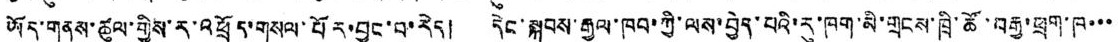ཡོད་གནས་ཚུལ་གྱིས་ར་འཕྲོད་གསལ་པོར་བྱུང་བ་རེད། དེང་སྐབས་རྒྱལ་ཁབ་ཀྱི་ལས་བྱེད་པའི་རུ་ཁག་མི་གྲངས་ཁྲི་ཚོ་བརྒྱ་ཕྲག་ཁ་་་
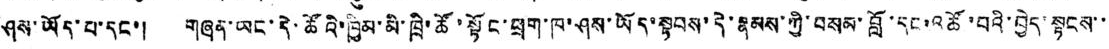ཤས་ཡོད་པ་དང་། གཞན་ཡང་དེ་ཚོའི་ཁྱིམ་མི་ཁྲི་ཚོ་སྟོང་ཕྲག་ཁ་ཤས་ཡོད་སྟབས་དེ་རྣམས་ཀྱི་བསམ་བློ་དང་འཚོ་བའི་བྱེད་སྟངས་་
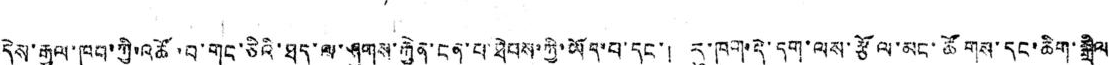དེས་རྒྱལ་ཁབ་ཀྱི་འཚོ་བ་གང་ཅིའི་ཐད་ལ་ཤུགས་རྐྱེན་ངན་པ་ཐེབས་ཀྱི་ཡོད་པ་དང་། རུ་ཁག་དེ་དག་ལས་རྩོལ་མང་ཚོགས་དང་ཆིག་སྒྲིལ
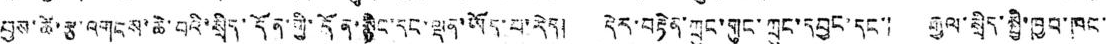བྱས་ཚེ་རྩ་འགངས་ཆེ་བའི་སྲིད་དོན་གྱི་དོན་སྙིང་དང་ལྡན་ཡོད་པ་རེད། དེར་བརྟེན་ཀྲུང་གུང་ཀྲུང་དབྱང་དང་། རྒྱལ་སྲིད་སྤྱི་ཁྱབ་ཁང་
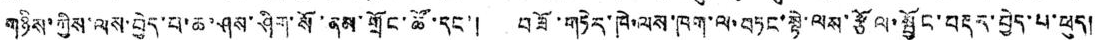གཉིས་ཀྱིས་ལས་བྱེད་པ་ཆ་ཤས་ཤིག་སོ་ནམ་གྲོང་ཚོ་དང་། བཟོ་གཏེར་ཁེ་ལས་ཁག་ལ་བཏང་སྟེ་ལས་རྩོལ་སྦྱོང་བརྡར་བྱེད་པ་ཕུད།
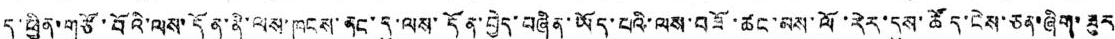ད་ཕྱིན་གཙོ་བོའི་ལས་དོན་ནི་ལས་ཁུངས་ནང་དུ་ལས་དོན་བྱེད་བཞིན་ཡོད་པའི་ལས་བཟོ་ཚང་མས་ལོ་རེར་དུས་ཚོད་ངེས་ཅན་ཞིག་ཟུར
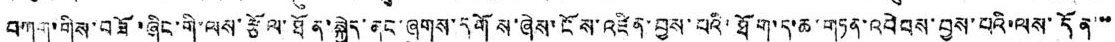བཀག་གིས་བཟོ་ཞིང་གི་ལས་རྩོལ་ཐོན་སྐྱེད་ནང་ཞུགས་དོགས་ཞེས་ངོས་འཛིན་བྱས་པའི་ཐོག་ད་ཆ་གཏན་འབེབས་བྱས་པའི་ལས་དོན་་་
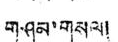གཤམ་གསལ།
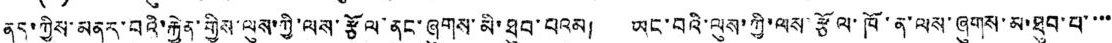ནད་ཀྱིས་མནར་བའི་རྐྱེན་གྱིས་ལུས་ཀྱི་ལས་རྩོལ་ནང་ཞུགས་མི་ཐུབ་པའམ། ཡང་བའི་ལུས་ཀྱི་ལས་རྩོལ་ཁོ་ན་ལས་ཞུགས་མ་ཐུབ་པ་་་་
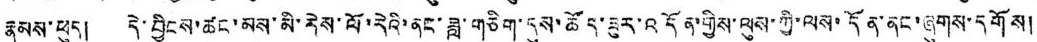རྣམས་ཕུད། དེ་བྱིངས་ཚང་མས་མི་རེས་ལོ་རེའི་ནང་ཟླ་གཅིག་དུས་ཚོད་ཟུར་འདོན་གྱིས་ལུས་གྱི་ལས་དོན་ནང་ཞུགས་དགོས།
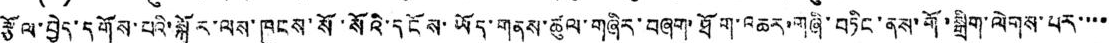རྩོལ་བྱེད་དགོས་པའི་སྐོར་ལས་ཁུངས་སོ་སོའི་དངོས་ཡོད་གནས་ཚུལ་གཞིར་བཞག་ཐོག་འཆར་གཞི་བཏིང་ནས་གོ་སྒྲིག་ལེགས་པར་་་་
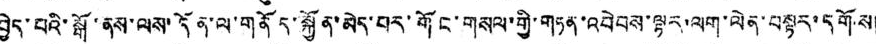བྱེད་པའི་སྒོ་ནས་ལས་དོན་ལ་གནོད་སྐྱོན་མེད་པར་གོང་གསལ་གྱི་གཏན་འབེབས་ལྟར་ལག་ལེབ་བསྟར་དགོས།
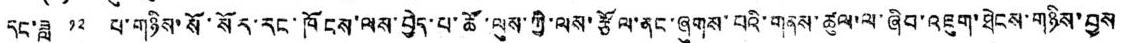དང་ཟླ ༡༢ པ་གཉིས་སོ་སོར་རང་ཁོངས་ལས་བྱེད་པ་ཚོ་ལུས་ཀྱི་ལས་རྩོལ་ནང་ཞུགས་པའི་གནས་ཚུལ་ལ་ཞིབ་འཇུག་ཐེངས་གཉིས་བྱས
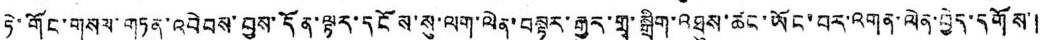ཏེ་གོང་གསལ་གཏན་འབེབས་བྱས་དོན་ལྟར་དངོས་སུ་ལག་ལེན་བསྟར་རྒྱུར་གྲྭ་སྒྲིག་འཐུས་ཚང་ཡོང་བར་འགན་ལེན་བྱེད་དགོས་།
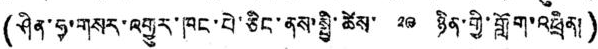(ཤིན་ཧྭ་གསར་འགྱུར་ཁང་པེ་ཅིང་ནས་སྤྱི་ཚེས་ ༢༩ ཉིན་གྱི་གློག་འཕྲིན།)
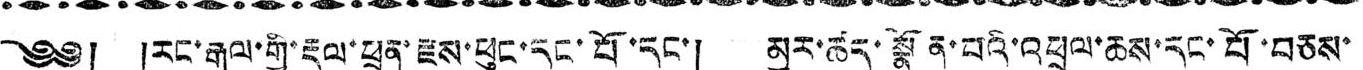༄༅། །རང་རྒྱལ་གྱི་རྡུལ་ཕྲན་རྫས་ཕུང་དང་པོ་དང་། མྱུར་ཚར་སྣོན་པའི་འཕྲུལ་ཆས་དང་པོ་བཅས་
